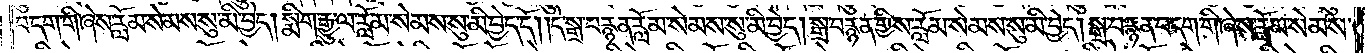བདག་གི་ཞེས་རློམ་སེམས་སུ་མི་བྱེད། སྨིག་རྒྱུ་ལ་རློམ་སེམས་སུ་མི་བྱེད་དོ། །དེ་སྒྲ་བརྙན་རློམ་སེམས་སུ་མི་བྱེད། སྒྲ་བརྙན་གྱིས་རློམ་སེམས་སུ་མི་བྱེད། སྒྲ་བརྙན་བདག་གི་ཞེས་རློམ་སེམས་
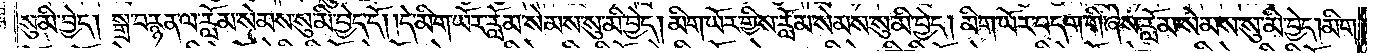སུ་མི་བྱེད། སྒྲ་བརྙན་ལ་རློམ་སེམས་སུ་མི་བྱེད་དོ། །དེ་མིག་ཡོར་རློམ་སེམས་སུ་མི་བྱེད། མིག་ཡོར་གྱིས་རློམ་སེམས་སུ་མི་བྱེད། མིག་ཡོར་བདག་གི་ཞེས་རློམ་སེམས་སུ་མི་བྱེད། མིག་
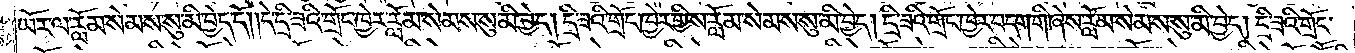ཡོར་ལ་རློམ་སེམས་སུ་མི་བྱེད་དོ། །དེ་དྲི་ཟའི་གྲོང་ཁྱེར་རློམ་སེམས་སུ་མི་བྱེད། དྲི་ཟའི་གྲོང་ཁྱེར་གྱིས་རློམ་སེམས་སུ་མི་བྱེད། དྲི་ཟའི་གྲོང་ཁྱེར་བདག་གི་ཞེས་རློམ་སེམས་སུ་མི་བྱེད། དྲི་ཟའི་གྲོང་
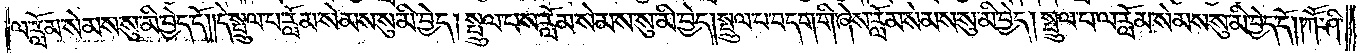ལ་རློམ་སེམས་སུ་མི་བྱེད་དོ། །དེ་སྤྲུལ་པ་རློམ་སེམས་སུ་མི་བྱེད། སྤྲུལ་པས་རློམ་སེམས་སུ་མི་བྱེད། སྤྲུལ་པ་བདག་གི་ཞེས་རློམ་སེམས་སུ་མི་བྱེད། སྤྲུལ་པ་ལ་རློམ་སེམས་སུ་མི་བྱེད་དོ། །ཀཽ་ཤི་
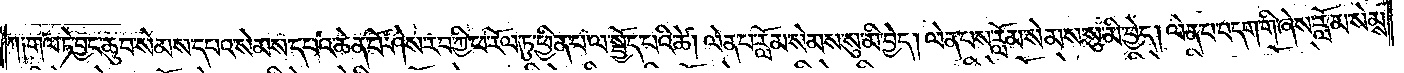ཀ༑ གལ་ཏེ་བྱང་ཆུབ་སེམས་དཔའ་སེམས་དཔའ་ཆེན་པོ་ཤེས་རབ་ཀྱི་ཕ་རོལ་ཏུ་ཕྱིན་པ་ལ་སྤྱོད་པའི་ཚེ། ལེན་པ་རློམ་སེམས་སུ་མི་བྱེད། ལེན་པས་རློམ་སེམས་སུ་མི་བྱེད། ལེན་པ་བདག་གི་ཞེས་རློམ་སེམས་
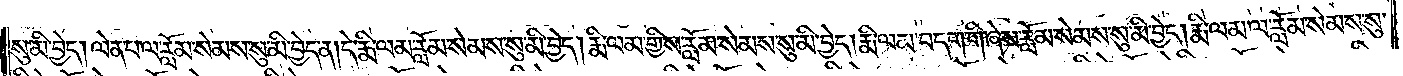སུ་མི་བྱེད། ལེན་པ་ལ་རློམ་སེམས་སུ་མི་བྱེད་ན། དེ་རྨི་ལམ་རློམ་སེམས་སུ་མི་བྱེད། རྨི་ལམ་གྱིས་རློམ་སེམས་སུ་མི་བྱེད། རྨི་ལམ་བདག་གི་ཞེས་རློམ་སེམས་སུ་མི་བྱེད། རྨི་ལམ་ལ་རློམ་སེམས་སུ་
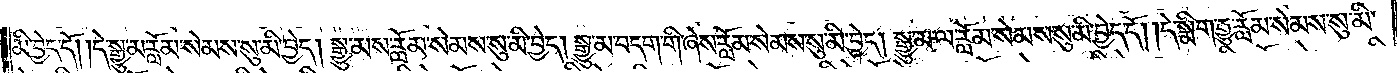མི་བྱེད་དོ། །དེ་སྒྱུ་མ་རློམ་སེམས་སུ་མི་བྱེད། སྒྱུ་མས་རློམ་སེམས་སུ་མི་བྱེད། སྒྱུ་མ་བདག་གི་ཞེས་རློམ་སེམས་སུ་མི་བྱེད། སྒྱུ་མ་ལ་རློམ་སེམས་སུ་མི་བྱེད་དོ། །དེ་སྨིག་རྒྱུ་རློམ་སེམས་སུ་མི་
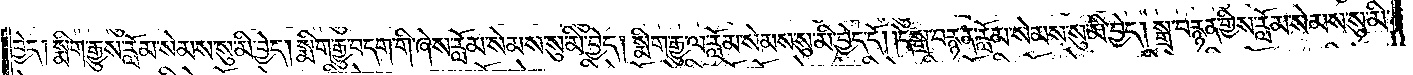བྱེད། སྨིག་རྒྱུས་རློམ་སེམས་སུ་མི་བྱེད། སྨིག་རྒྱུ་བདག་གི་ཞེས་རློམ་སེམས་སུ་མི་བྱེད། སྨིག་རྒྱུ་ལ་རློམ་སེམས་སུ་མི་བྱེད་དོ། །དེ་སྒྲ་བརྙན་རློམ་སེམས་སུ་མི་བྱེད། སྒྲ་བརྙན་གྱིས་རློམ་སེམས་སུ་མི་
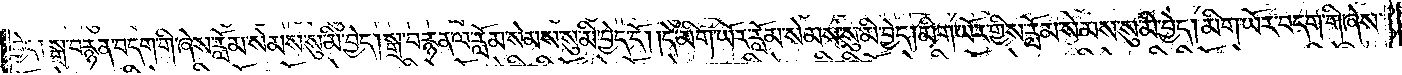བྱེད། སྒྲ་བརྙན་བདག་གི་ཞེས་རློམ་སེམས་སུ་མི་བྱེད། སྒྲ་བརྙན་ལ་རློམ་སེམས་སུ་མི་བྱེད་དོ། །དེ་མིག་ཡོར་རློམ་སེམས་སུ་མི་བྱེད། མིག་ཡོར་གྱིས་རློམ་སེམས་སུ་མི་བྱེད། མིག་ཡོར་བདག་གི་ཞེས་
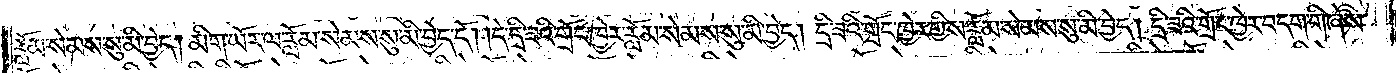རློམ་སེམས་སུ་མི་བྱེད། མིག་ཡོར་ལ་རློམ་སེམས་སུ་མི་བྱེད་དོ། །དེ་དྲི་ཟའི་གྲོང་ཁྱེར་རློམ་སེམས་སུ་མི་བྱེད། དྲི་ཟའི་གྲོང་ཁྱེར་གྱིས་རློམ་སེམས་སུ་མི་བྱེད། དྲི་ཟའི་གྲོང་ཁྱེར་བདག་གི་ཞེས་
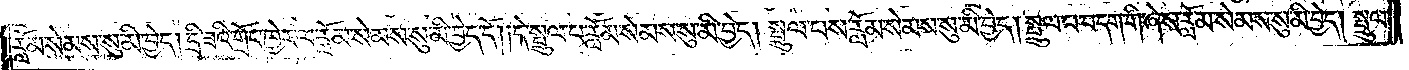རློམ་སེམས་སུ་མི་བྱེད། དྲི་ཟའི་གྲོང་ཁྱེར་ལ་རློམ་སེམས་སུ་མི་བྱེད་དོ། །དེ་སྤྲུལ་པ་རློམ་སེམས་སུ་མི་བྱེད། སྤྲུལ་པས་རློམ་སེམས་སུ་མི་བྱེད། སྤྲུལ་པ་བདག་གི་ཞེས་རློམ་སེམས་སུ་མི་བྱེད། སྤྲུལ་
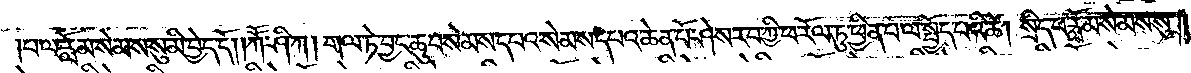པ་ལ་རློམ་སེམས་སུ་མི་བྱེད་དོ། །ཀཽ་ཤི་ཀ། གལ་ཏེ་བྱང་ཆུབ་སེམས་དཔའ་སེམས་དཔའ་ཆེན་པོ་ཤེས་རབ་ཀྱི་ཕ་རོལ་ཏུ་ཕྱིན་པ་ལ་སྤྱོད་པའི་ཚེ། སྲིད་པ་རློམ་སེམས་སུ་
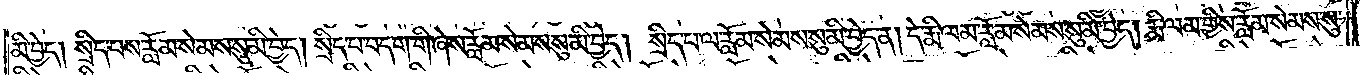མི་བྱེད། སྲིད་པས་རློམ་སེམས་སུ་མི་བྱེད། སྲིད་པ་བདག་གི་ཞེས་རློམ་སེམས་སུ་མི་བྱེད། སྲིད་པ་ལ་རློམ་སེམས་སུ་མི་བྱེད་ན། དེ་རྨི་ལམ་རློམ་སེམས་སུ་མི་བྱེད། རྨི་ལམ་གྱིས་རློམ་སེམས་སུ་
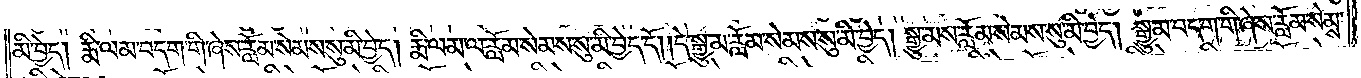མི་བྱེད། རྨི་ལམ་བདག་གི་ཞེས་རློམ་སེམས་སུ་མི་བྱེད། རྨི་ལམ་ལ་རློམ་སེམས་སུ་མི་བྱེད་དོ། །དེ་སྒྱུ་མ་རློམ་སེམས་སུ་མི་བྱེད། སྒྱུ་མས་རློམ་སེམས་སུ་མི་བྱེད། སྒྱུ་མ་བདག་གི་ཞེས་རློམ་སེམས་
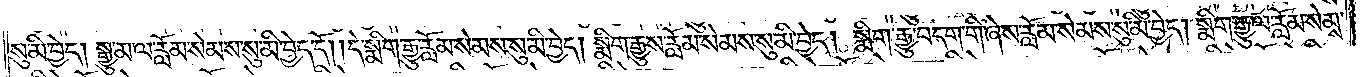སུ་མི་བྱེད། སྒྱུ་མ་ལ་རློམ་སེམས་སུ་མི་བྱེད་དོ། །དེ་སྨིག་རྒྱུ་རློམ་སེམས་སུ་མི་བྱེད། སྨིག་རྒྱུས་རློམ་སེམས་སུ་མི་བྱེད། སྨིག་རྒྱུ་བདག་གི་ཞེས་རློམ་སེམས་སུ་མི་བྱེད། སྨིག་རྒྱུ་ལ་རློམ་སེམས་
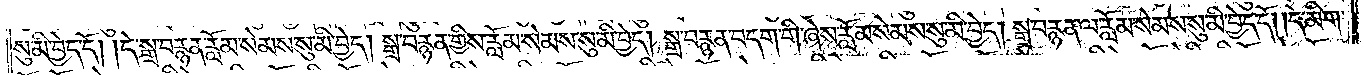སུ་མི་བྱེད་དོ། །དེ་སྒྲ་བརྙན་རློམ་སེམས་སུ་མི་བྱེད། སྒྲ་བརྙན་གྱིས་རློམ་སེམས་སུ་མི་བྱེད། སྒྲ་བརྙན་བདག་གི་ཞེས་རློམ་སེམས་སུ་མི་བྱེད། སྒྲ་བརྙན་ལ་རློམ་སེམས་སུ་མི་བྱེད་དོ། །དེ་མིག་
